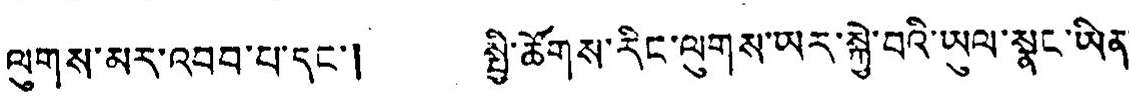ལུགས་མར་འབབ་པ་དང་། སྤྱི་ཚོགས་རིང་ལུགས་ཡར་སྐྱེ་བའི་ཡུལ་སྣང་ཡིན་
